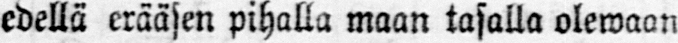edellä erääsen pihalla maan tasalla olewaan
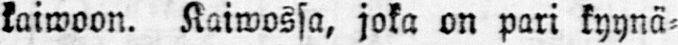kaiwoon. Kaiwossa, joka on pari kyynä-
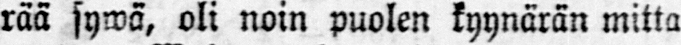rää sywä, oli noin puolen kyynärän mitta
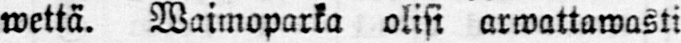wettä. Waimoparka olisi arwattawasti
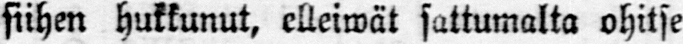siihen hukkunut, elleiwät sattumalta ohitse
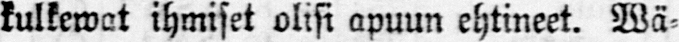kulkewat ihmiset olisi apuun ehtineet. Wä-
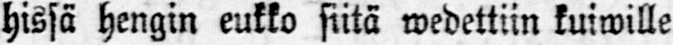hissä hengin eukko siitä wedettiin kuiwille
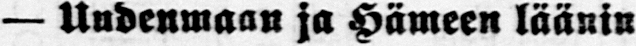— Uudenmaan ja Hämeen läänin
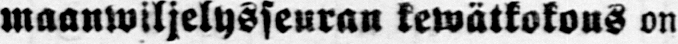maanwiljelysseuran kewätkokous on
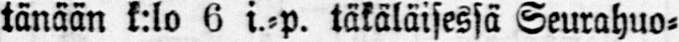tänään k:lo 6 i.-p. täkäläisessä Seurahuo-
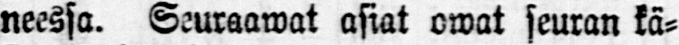neessa. Seuraawat asiat owat seuran kä-
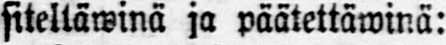siteltäwinä ja päätettäwinä:
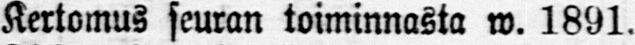Kertomus seuran toiminnasta w. 1891.
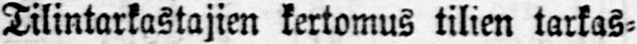Tilintarkastajien kertomus tilien tarkas-
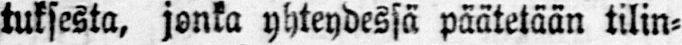tuksesta, jonka yhteydessä päätetään tilin-
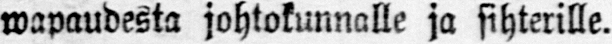wapaudesta johtokunnalle ja sihterille.
